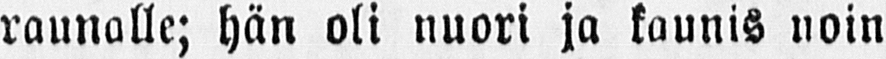ruunalle; hän oli nuori ja kaunis noin
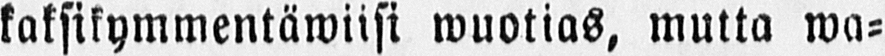kaksikymmentäwiisi wuotias, mutta wa-
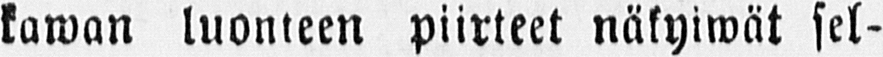kawan luonteen piirteet näkyiwät sel-
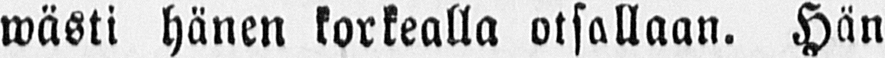wästi hänen korkealla otsallaan. Hän
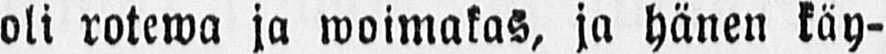oli rotewa ja woimakas, ja hänen käy-
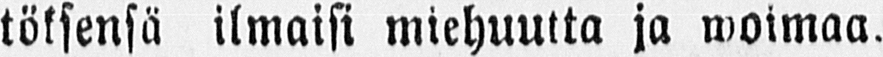töksensä ilmaisi miehuutta ja woimaa.
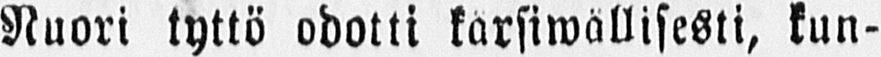Nuori tyttö odotti karsiwällisesti, kun-
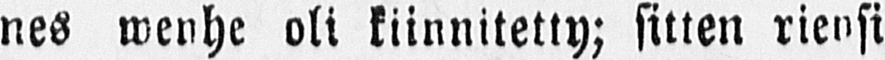nes wenhe oli kiinnitetty; sitten riensi
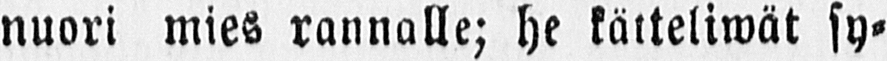nuori mies rannalle; he kätteliwät sy-
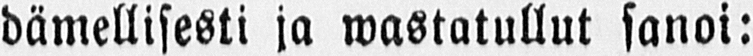dämellisesti ja wastatullut sanoi:
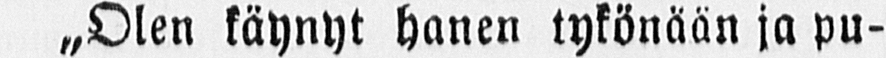„Olen käynyt hanen tykönään ja pu-
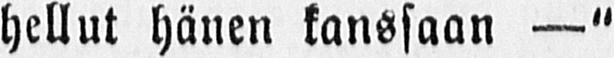hellut hänen kanssaan —"
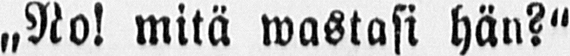„No! mitä wastasi hän?"
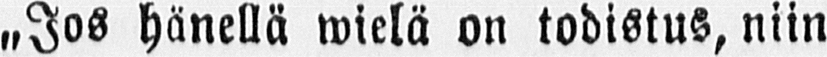„Jos hänellä wielä on todistus, niin
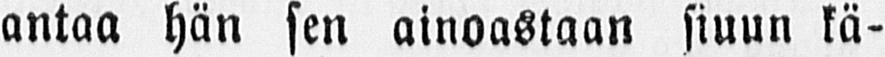antaa hän sen ainoastaan siuun kä-
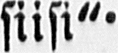siisi".
